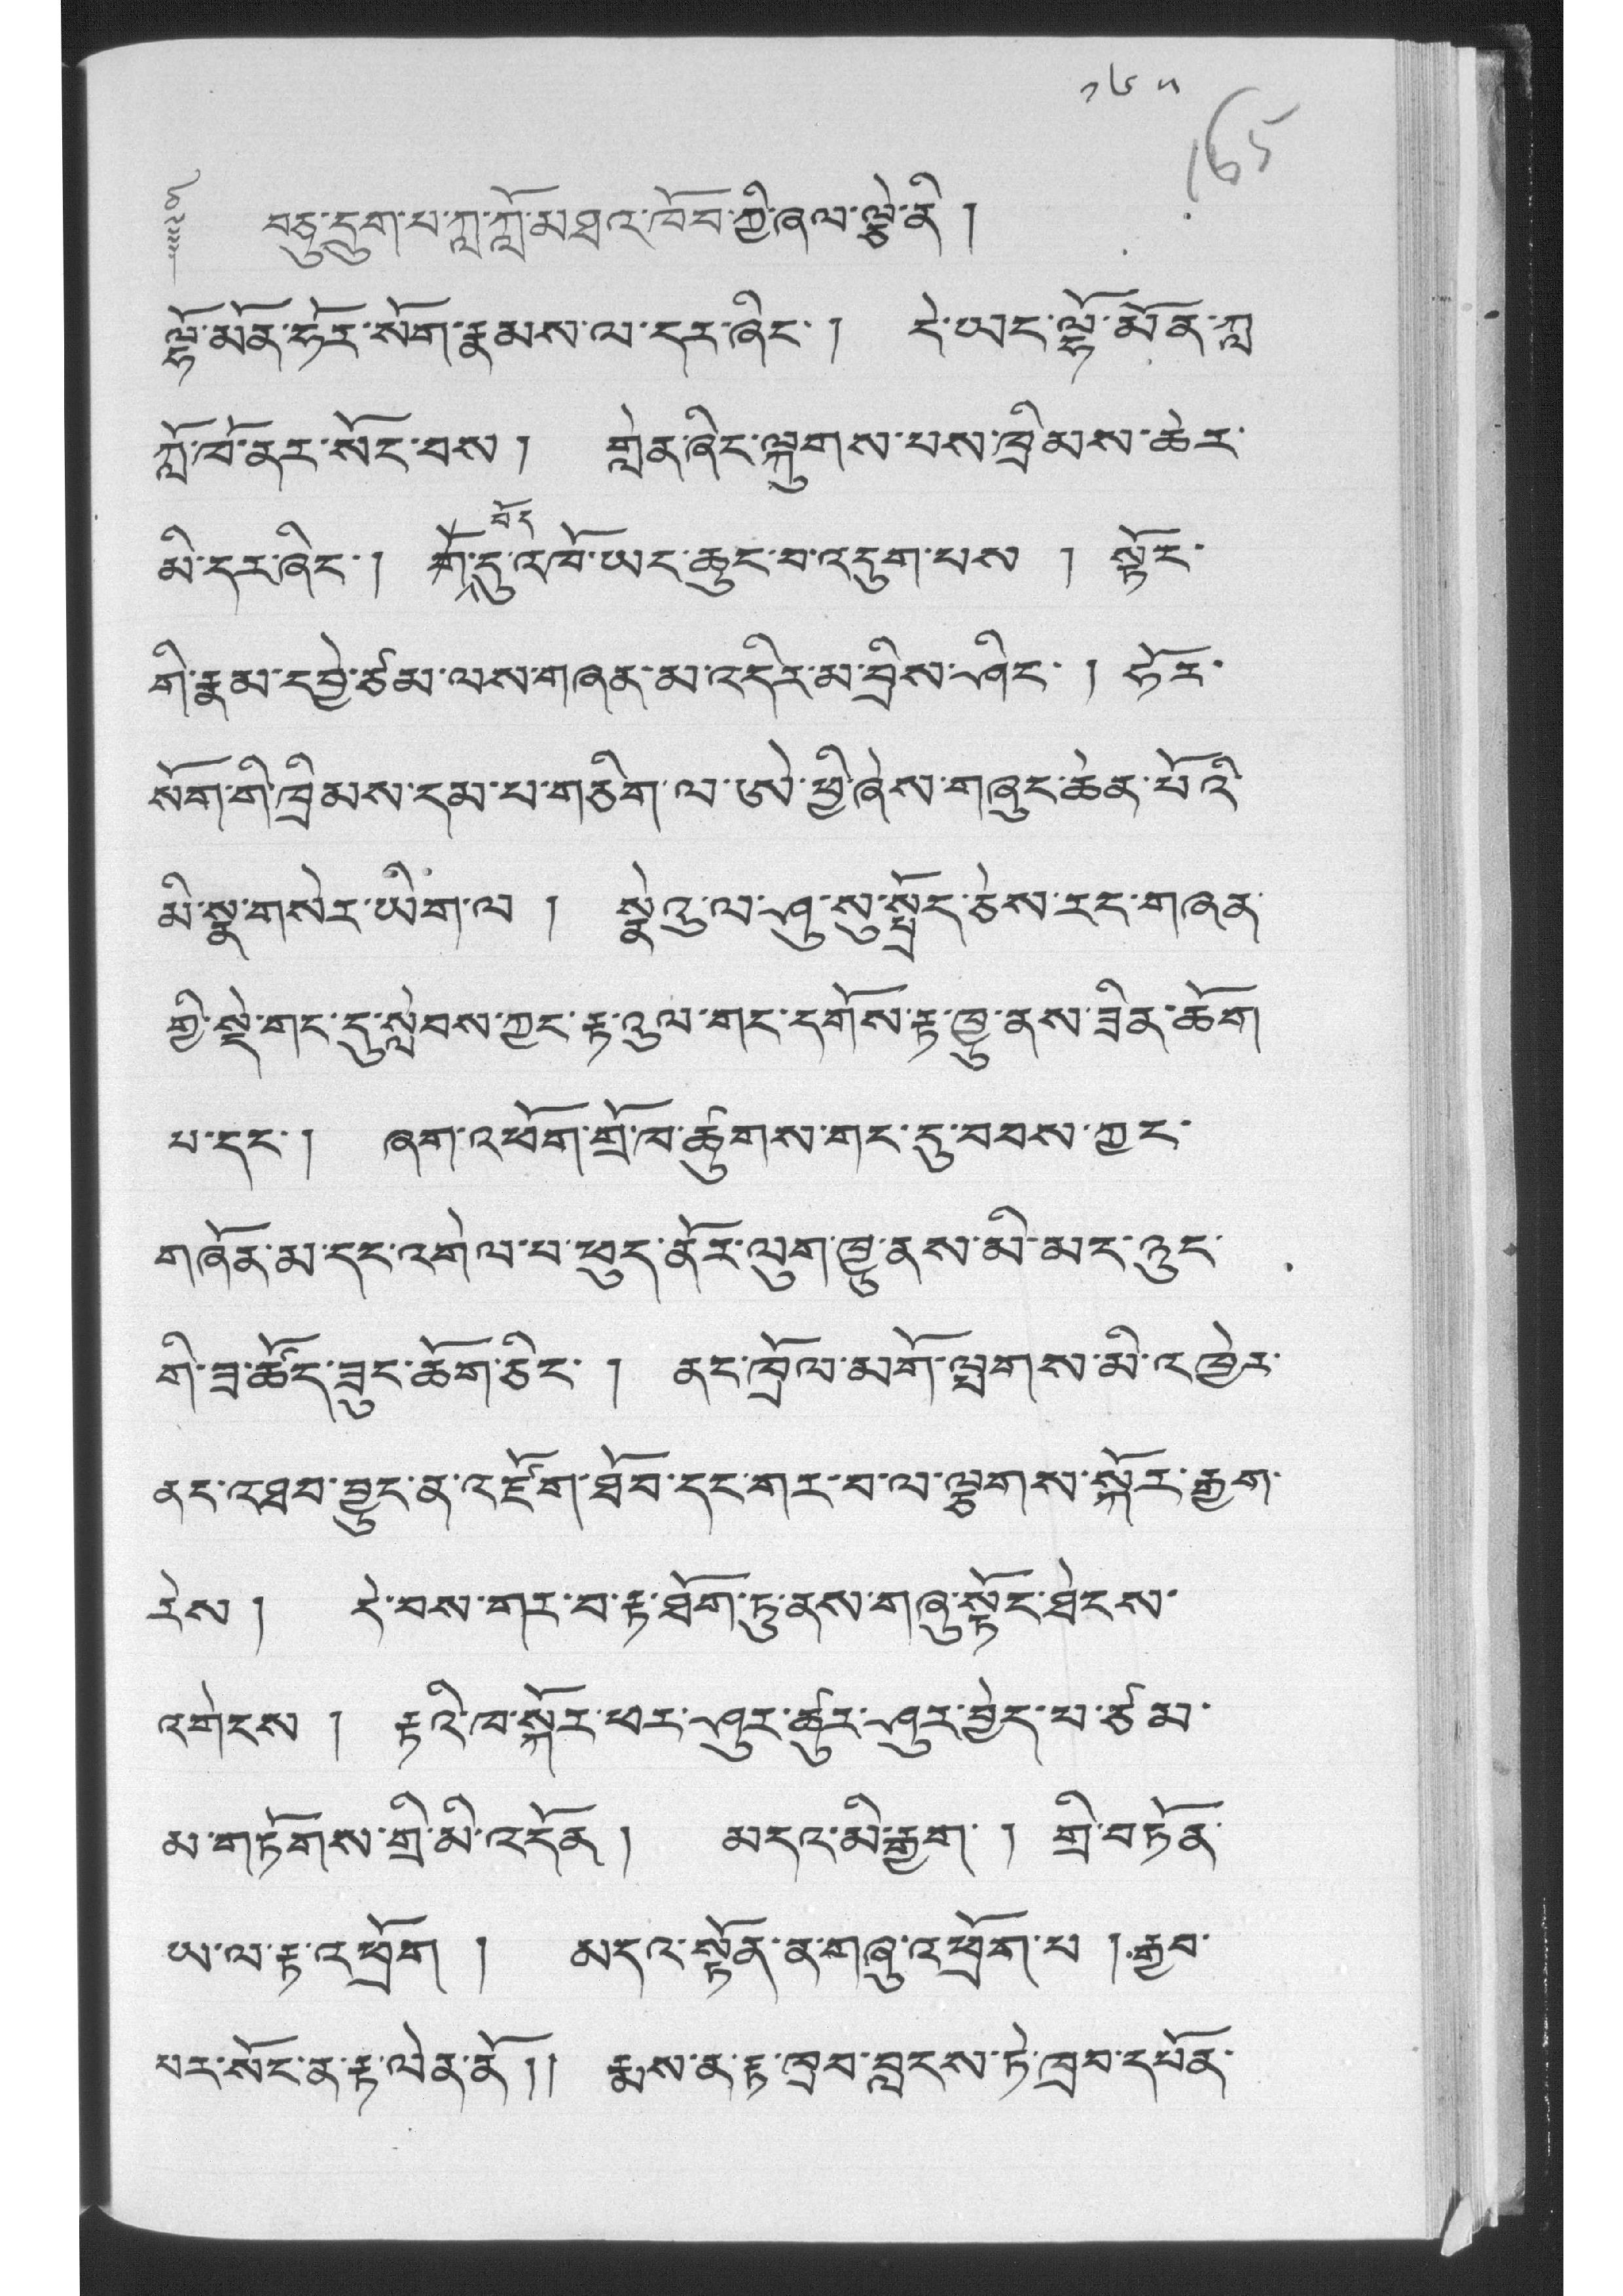༡༦༥
༈ བཅུ་དྲུག་པ་ཀླ་ཀློ་མཐའ་ཁོབ་ཀྱི་ཞལ་ལྕེ་ནི །
ལྷོ་མོན་ཧོར་སོག་རྣམས་ལ་དར་ཞིང་། དེ་ཡང་ལྷོ་མོན་ཀླ་
ཀློ་ཁོ་ནར་སོང་བས། གླེན་ཞིང་ལྐུགས་པས་ཁྲིམས་ཆེར་
མི་དར་ཞིང་། གོབོད་དུ་འེཁོ་ཡང་ཆུང་བ་འདུག་པས ། སྟོང་
གི་རྣམ་དབྱེ་ཙམ་ལས་གཞན་མ་འདིར་མ་བྲིས་ཤིང་ ། ཧོར་
སོག་གི་ཁྲིམས་དམ་པ་གཅིག་ལ་ཨེ་ཕྱི་ཞེས་གཞུང་ཆེན་པོའི་
མི་སྣ་གསེར་ཡིག་ལ ། སྣེའུ་ལ་ཤུ་སུ་སྤྲོད་ཅེས་རང་གཞན་
གྱི་སྡེ་གང་དུ་སླེབས་ཀྱང་རྟ་འུལ་གང་དགོས་རྟ་ཁྱུ་ནས་ཟིན་ཆོག་
པ་དང་། ཞག་འཕོག་གྲོ་ཁ་ཚུགས་གང་དུ་བབས་ཀྱང་
གཞོན་མ་དང་འགེལ་པ་ཕུད་ནོར་ལུག་ཁྱུ་ནས་མི་མང་ཉུང་
གི་ཟ་ཚོད་ཟུང་ཆོག་ཅིང་ ། ནང་ཁྲོལ་མགོ་ལྤགས་མི་འཁྱེར་
ནང་འཐབ་བྱུང་ན་འཇོག་ཐོབ་དང་གར་བ་ལ་ལྕགས་སྐོར་རྒྱག་
རེས ། དེ་བས་གར་བ་རྟ་ཐོག་ཏུ་ནས་གཞུ་སྟོང་ཐེངས་
འགེངས ། རྟའི་ཁ་སྐོར་ཕར་ཤུར་ཚུར་ཤུར་བྱེད་པ་ཙམ་
མ་གཏོགས་གྲི་མི་འདོན ། མདའ་མི་རྒྱག་ ། གྲི་བཏོན་
ཡ་ལ་རྟ་འཕྲོག ། མདའ་སྟོན་ན་གཞུ་འཕྲུག་པ ། རྒྱབ་
པར་སོང་ན་རྟ་ལེན་ནོ།། རྨས་ན་རྟ་ཁྲབ་བླངས་ཏེ་ཁྲབ་དཔོན་
